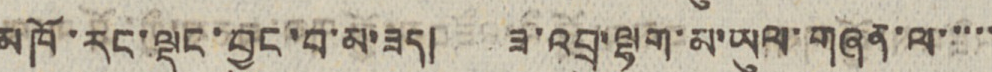མཁོ་རང་ལྡང་བྱུང་བ་མ་ཟད། ཟ་འབྲུ་ལྷག་མ་ཡུལ་གཞན་ལ་་་་་
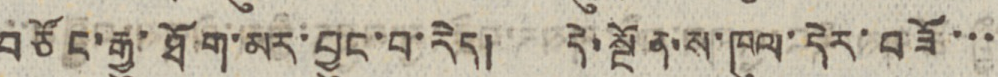བཙོང་རྒྱུ་ཐོག་མར་བྱུང་བ་རེད། དེ་སྔོན་ས་ཁུལ་དེར་བཟོ་་་
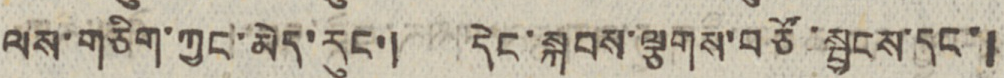ལས་གཅིག་ཀྱང་མེད་རུང་། དེང་སྐབས་ལྕགས་བཙོ་སྦྱངས་དང་།
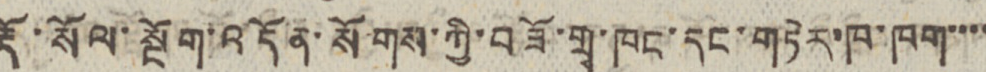རྡོ་སོལ་སྔོག་འདོན་སོགས་ཀྱི་བཟོ་གྲྭ་ཁང་དང་གཏེར་ཁ་ཁག་་་་
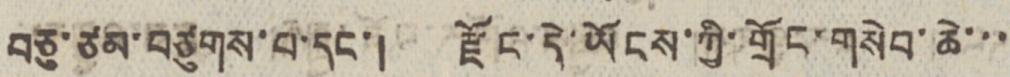བཅུ་ཙམ་བཙུགས་པ་དང་། རྫོང་དེ་ཡོངས་ཀྱི་གྲོང་གསེབ་ཆེ་་་
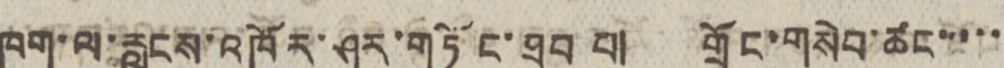ཁག་ལ་རླངས་འཁོར་ཤར་གཏོང་ཐུབ པ། གྲོང་གསེབ་ཚང་་་་་
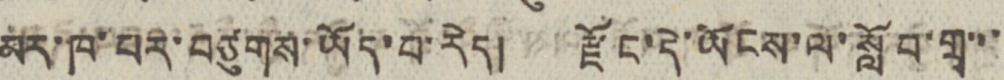མར་ཁ་པར་བཙུགས་ཡོད་པ་རེད། རྫོང་དེ་ཡོངས་ལ་སློབ་གྲྭ་་་
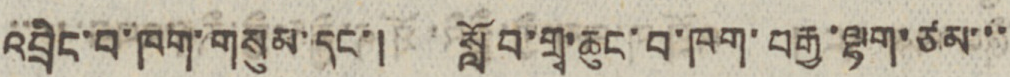འབྲིང་བ་ཁག་གསུམ་དང་། སློབ་གྲྭ་ཆུང་བ་ཁག་བརྒྱ་ལྷག་ཙམ་་་
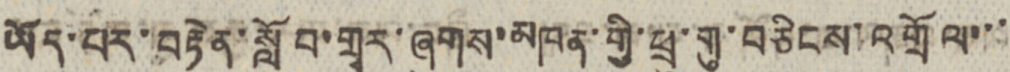ཡོད་པར་བརྟེན་སློབ་གྲྭར་ཞུགས་མཁན་གྱི་ཕྲུ་གུ་བཅིངས་འགྲོལ་་་
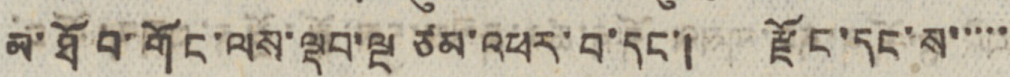མ་ཐོབ་གོང་ལས་ལྡབ་ལྔ ཙམ་འཕར་བ་དང་། རྫོང་དང་ས་་་་་
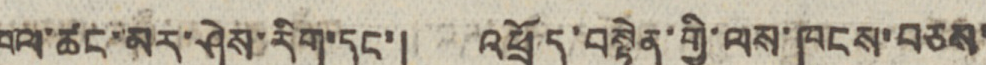ཁུལ་ཚང་མར་ཤེས་རིག་དང་། འཕྲོད་བསྟེན་གྱི་ལས་ཁུངས་བཅས་
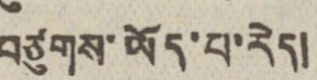བཙུགས་ཡོད་པ་རེད།
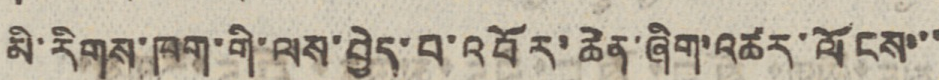མི་རིགས་ཁག་གི་ལས་བྱེད་པ་འབོར་ཆེན་ཞིག་འཚར་ལོངས་་་
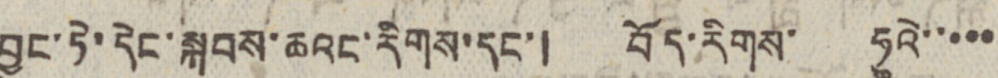བྱུང་ཏེ་དེང་སྐབས་ཆའང་རིགས་དང་། བོད་རིགས་ ཧུའེ་་་་་
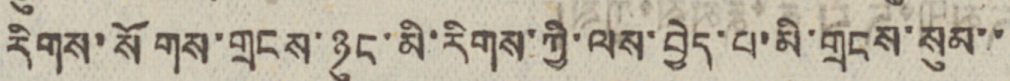རིགས་སོགས་གྲངས་ཉུང་མི་རིགས་ཀྱི་ལས་བྱེད་པ་མི་གྲངས་སུམ་་
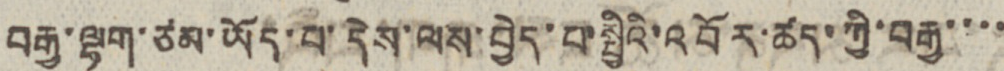བརྒྱ་ལྷག་ཙམ་ཡོད་པ་དེས་ལས་བྱེད་པ་སྤྱིའི་འབོར་ཚད་ཀྱི་བརྒྱ་་་་
